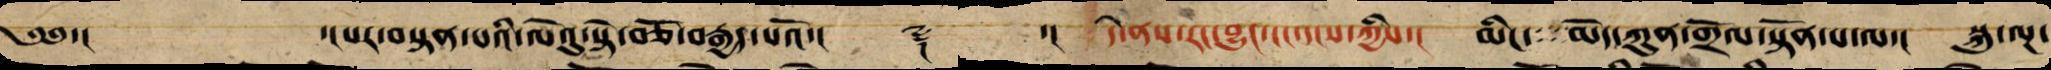༄༅་། པར་བསྟན་པའི་ལེའུ་སྟེ་བཅོ་བརྒྱད་པའོ་།། ༈ ་།། དེ་ནས་རང་བྱུང་ངང་དངས་ཀྱིས་། མིང་མེད་ཀུན་གྲོལ་སྟོན་པ་ལ་། སྐུ་ལྔ་
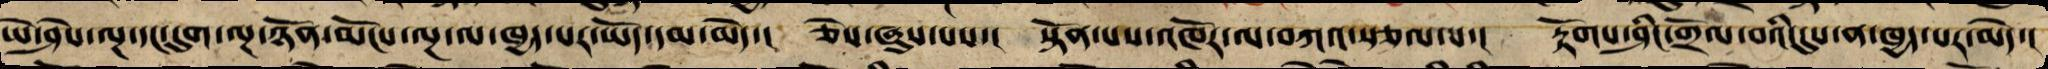ཡེ་ཤེས་ལྔ་དང་དུག་ལྔ་ཉོན་མོངས་ལྔ་ལ་ཁྱད་པར་ཡོད་དམ་མེད་། ཅེས་ཞུས་པས་། སྟོན་པས་འཁོར་ལ་བཀའ་སྩལ་པ་། རྟོགས་ཤིང་གྲོལ་བའི་དུས་ན་ཁྱད་པར་མེད་།
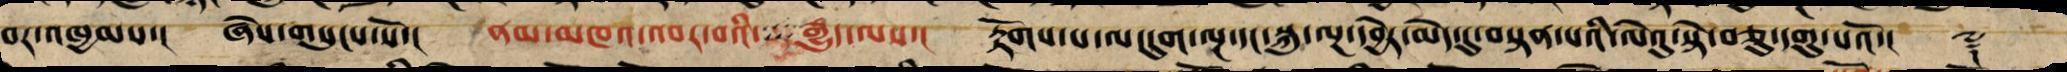བར་འཁྱམས་། ཞེས་གསུངས་སོ་། ནམ་མཁའ་འབར་བའི་རྒྱུད་ལས་། རྟོགས་པ་ལ་དུག་ལྔ་དང་སྐུ་ལྔ་དབྱེར་མེད་དུ་བསྟན་པའི་ལེའུ་སྟེ་བཅུ་དགུ་པའོ་།། ༈
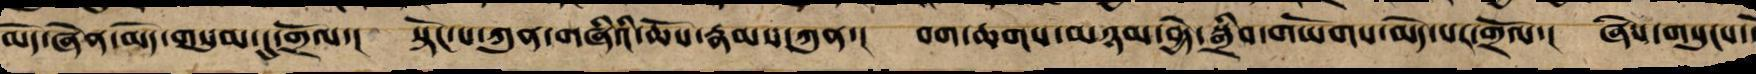མེད་ཞེན་མེད་གསུམ་དུ་གྲོལ་། སྟོང་པ་ཀུན་གཞིའི་ཆོས་རྣམས་ཀུན་། བག་ཆགས་མཉམ་བྱེད་སྒྲིབ་གཡོགས་མེད་པར་གྲོལ་། ཞེས་གསུངས་སོ
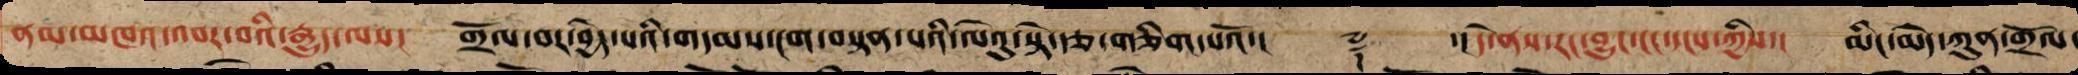ནམ་མཁའ་འབར་བའི་རྒྱུད་ལས་། གྲོལ་བར་བྱེད་པའི་གདམས་ངག་བསྟན་པའི་ལེའུ་སྟེ་ཉི་ཤུ་རྩ་གཅིག་པའོ་།། ༈ ་། དེ་ནས་རང་བྱུང་རང་དངས་ཀྱིས་། མིང་མེད་ཀུན་གྲོལ་
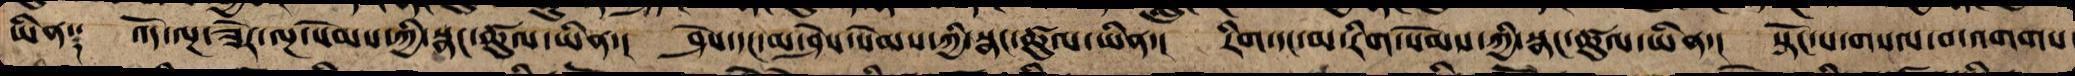ཡིན༑ འོད་ལྔ་ཟེར་ལྔ་སེམས་ཀྱི་སྣང་ཚུལ་ཡིན་། ཤེས་དང་མ་ཤེས་སེམས་ཀྱི་སྣང་ཚུལ་ཡིན་། རིག་དང་མ་རིག་སེམས་ཀྱི་སྣང་ཚུལ་ཡིན་། སྟོང་པ་གསལ་བ་འགགས
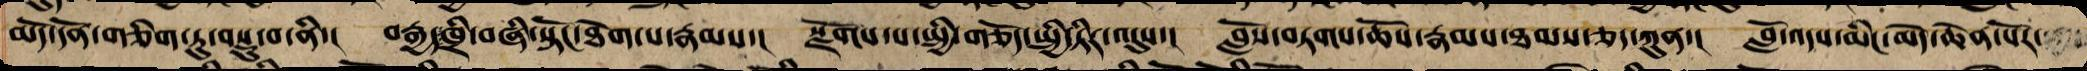མདོ་དོན་གཅིག་ཏུ་བསྡུ་བ་ནི་། བརྒྱ་ཁྲི་བཞི་སྟོང་ཐེག་པ་རྣམས་། སྫོགས་པ་སྤྱི་གཅོད་སྤྱི་ཏིར་འདུས་། བློས་བཏགས་ཆོས་རྣམས་ཐམས་ཅད་ཀུན་། བློ་འདས་མིང་མེད་ཆེན་པོར་
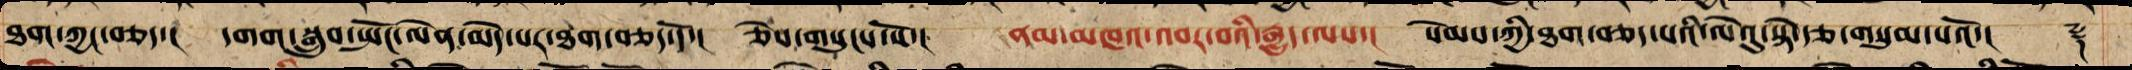ཐག་ཀྱང་བཅད་། དགག་སྒྲུབ་སྤོང་ལེན་མེད་པར་ཐག་བཅད་དོ་། ཅེས་གསུངས་སོ་། ནམ་མཁའ་འབར་བའི་རྒྱུད་ལས་། སེམས་ཀྱི་ཐག་བཅད་པའི་ལེའུ་སྟེ་ཉི་ཤུ་རྩ་གསུམ་པའོ་།། ༈
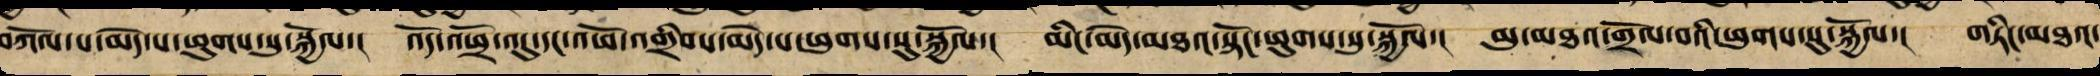བཀོལ་བ་མེད་པའི་ཕུགས་སུ་སྐྱོལ་། འོད་འཕྲོ་འདུ་དང་འཕེལ་འགྲིབ་མེད་པའི་ཕུགས་སུ་སྐྱོལ་། མིང་མེད་མཐའ་སྟོང་ཕུགས་སུ་སྐྱོལ་། མུ་མཐའ་གྲོལ་བའི་ཕུགས་སུ་སྐྱོལ་། གཏིང་མཐའ་
